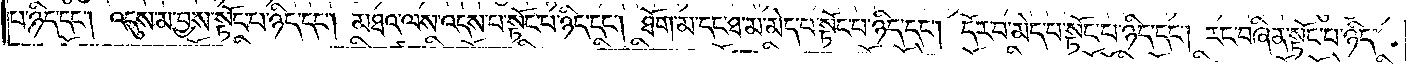པ་ཉིད་དང༌། འདུས་མ་བྱས་སྟོང་པ་ཉིད་དང༌། མཐའ་ལས་འདས་པ་སྟོང་པ་ཉིད་དང༌། ཐོག་མ་དང་ཐ་མ་མེད་པ་སྟོང་པ་ཉིད་དང༌། དོར་བ་མེད་པ་སྟོང་པ་ཉིད་དང༌། རང་བཞིན་སྟོང་པ་ཉིད་
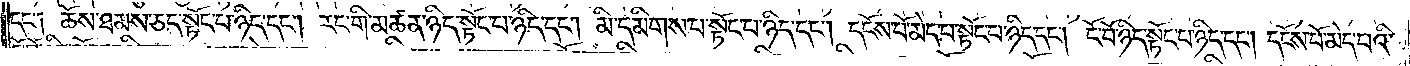དང༌༑ ཆོས་ཐམས་ཅད་སྟོང་པ་ཉིད་དང༌། རང་གི་མཚན་ཉིད་སྟོང་པ་ཉིད་དང༌། མི་དམིགས་པ་སྟོང་པ་ཉིད་དང༌། དངོས་པོ་མེད་པ་སྟོང་པ་ཉིད་དང༌། ངོ་བོ་ཉིད་སྟོང་པ་ཉིད་དང༌། དངོས་པོ་མེད་པའི་
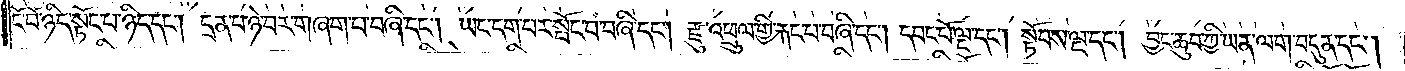ངོ་བོ་ཉིད་སྟོང་པ་ཉིད་དང༌། དྲན་པ་ཉེ་བར་གཞག་པ་བཞི་དང༌། ཡང་དག་པར་སྤོང་བ་བཞི་དང༌། རྫུ་འཕྲུལ་གྱི་རྐང་པ་བཞི་དང༌། དབང་པོ་ལྔ་དང༌། སྟོབས་ལྔ་དང༌། བྱང་ཆུབ་ཀྱི་ཡན་ལག་བདུན་དང༌།
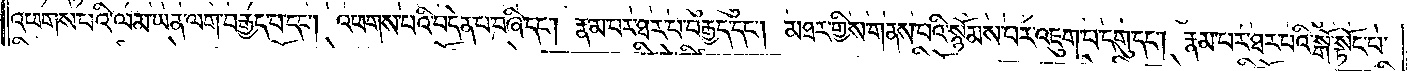འཕགས་པའི་ལམ་ཡན་ལག་བརྒྱད་པ་དང༌། འཕགས་པའི་བདེན་པ་བཞི་དང༌། རྣམ་པར་ཐར་པ་བརྒྱད་དང༌། མཐར་གྱིས་གནས་པའི་སྙོམས་པར་འཇུག་པ་དགུ་དང༌། རྣམ་པར་ཐར་པའི་སྒོ་སྟོང་པ་
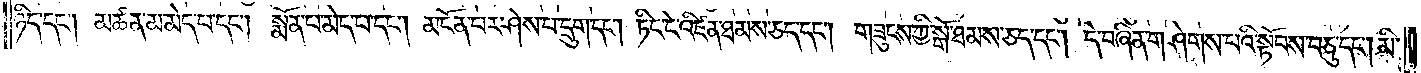ཉིད་དང༌། མཚན་མ་མེད་པ་དང༌། སྨོན་པ་མེད་པ་དང༌། མངོན་པར་ཤེས་པ་དྲུག་དང༌། ཏིང་ངེ་འཛིན་ཐམས་ཅད་དང༌། གཟུངས་ཀྱི་སྒོ་ཐམས་ཅད་དང༌། དེ་བཞིན་གཤེགས་པའི་སྟོབས་བཅུ་དང༌། མི་
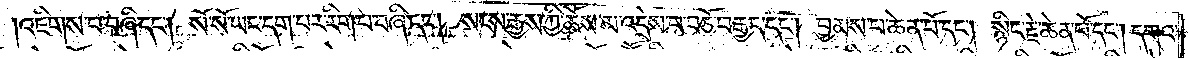འཇིགས་པ་བཞི་དང༌། སོ་སོ་ཡང་དག་པར་རིག་པ་བཞི་དང༌། སངས་རྒྱས་ཀྱི་ཆོས་མ་འདྲེས་པ་བཅོ་བརྒྱད་དང༌། བྱམས་པ་ཆེན་པོ་དང༌། སྙིང་རྗེ་ཆེན་པོ་དང༌། དགའ་
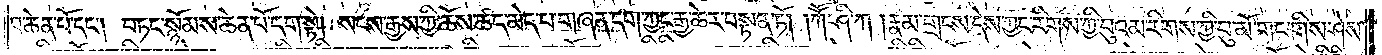བ་ཆེན་པོ་དང༌། བཏང་སྙོམས་ཆེན་པོ་དག་སྟེ། སངས་རྒྱས་ཀྱི་ཆོས་ཚད་མེད་པ་གཞན་དག་ཀྱང་རྒྱ་ཆེར་བསྟན་ཏོ། །ཀཽ་ཤི་ཀ །རྣམ་གྲངས་དེས་ཀྱང་རིགས་ཀྱི་བུའམ་རིགས་ཀྱི་བུ་མོ་གང་གིས་ཤེས་
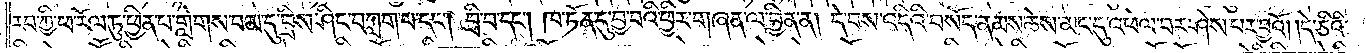རབ་ཀྱི་ཕ་རོལ་ཏུ་ཕྱིན་པ་གླེགས་བམ་དུ་བྲིས་ཤིང་བཀླག་པ་དང༌། བྲི་བ་དང༌། ཁ་ཏོན་དུ་བྱ་བའི་ཕྱིར་གཞན་ལ་བྱིན་ན། དེ་བས་འདིའི་བསོད་ནམས་ཆེས་མང་དུ་འཕེལ་བར་ཤེས་པར་བྱའོ། །དེ་ཅིའི་
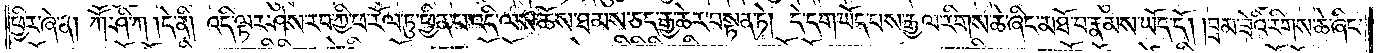ཕྱིར་ཞེ་ན། ཀཽ་ཤི་ཀ །དེ་ནི། འདི་ལྟར་ཤེས་རབ་ཀྱི་ཕ་རོལ་ཏུ་ཕྱིན་པ་འདི་ལས་ཆོས་ཐམས་ཅད་རྒྱ་ཆེར་བསྟན་ཏེ། དེ་དག་ཡོད་པས་རྒྱལ་རིགས་ཆེ་ཞིང་མཐོ་བ་རྣམས་ཡོད་དོ། །བྲམ་ཟེའི་རིགས་ཆེ་ཞིང་
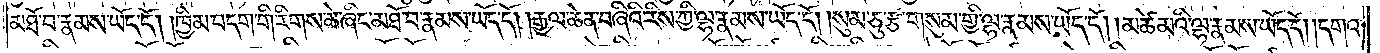མཐོ་བ་རྣམས་ཡོད་དོ། །ཁྱིམ་བདག་གི་རིགས་ཆེ་ཞིང་མཐོ་བ་རྣམས་ཡོད་དོ། །རྒྱལ་ཆེན་བཞིའི་རིས་ཀྱི་ལྷ་རྣམས་ཡོད་དོ། །སུམ་ཅུ་རྩ་གསུམ་གྱི་ལྷ་རྣམས་ཡོད་དོ། །མཚེ་མའི་ལྷ་རྣམས་ཡོད་དོ། །དགའ་
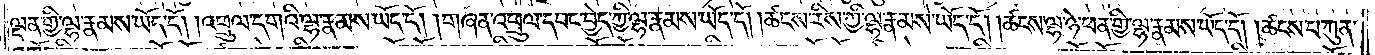ལྡན་གྱི་ལྷ་རྣམས་ཡོད་དོ། །འཕྲུལ་དགའི་ལྷ་རྣམས་ཡོད་དོ། །གཞན་འཕྲུལ་དབང་བྱེད་ཀྱི་ལྷ་རྣམས་ཡོད་དོ། །ཚངས་རིས་ཀྱི་ལྷ་རྣམས་ཡོད་དོ། །ཚངས་ལྷ་ཉེ་ཕན་གྱི་ལྷ་རྣམས་ཡོད་དོ། །ཚངས་པ་ཀུན་
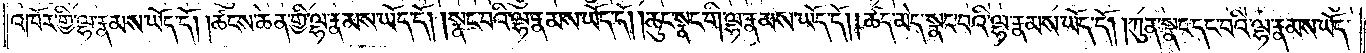འཁོར་གྱི་ལྷ་རྣམས་ཡོད་དོ། །ཚངས་ཆེན་གྱི་ལྷ་རྣམས་ཡོད་དོ། །སྣང་བའི་ལྷ་རྣམས་ཡོད་དོ། །ཆུང་སྣང་གི་ལྷ་རྣམས་ཡོད་དོ། །ཚད་མེད་སྣང་བའི་ལྷ་རྣམས་ཡོད་དོ། །ཀུན་སྣང་དང་བའི་ལྷ་རྣམས་ཡོད་
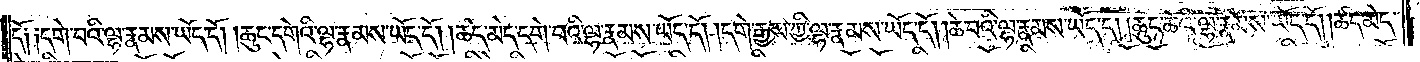དོ༑ ༑དགེ་བའི་ལྷ་རྣམས་ཡོད་དོ། །ཆུང་དགེའི་ལྷ་རྣམས་ཡོད་དོ། །ཚད་མེད་དགེ་བའི་ལྷ་རྣམས་ཡོད་དོ། །དགེ་རྒྱས་ཀྱི་ལྷ་རྣམས་ཡོད་དོ། །ཆེ་བའི་ལྷ་རྣམས་ཡོད་དོ། །ཆུང་ཆེའི་ལྷ་རྣམས་ཡོད་དོ། །ཚད་མེད་
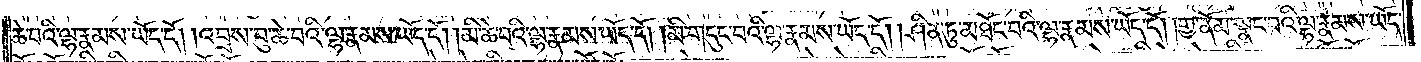ཆེ་བའི་ལྷ་རྣམས་ཡོད་དོ། །འབྲས་བུ་ཆེ་བའི་ལྷ་རྣམས་ཡོད་དོ། །མི་ཆེ་བའི་ལྷ་རྣམས་ཡོད་དོ། །མི་གདུང་བའི་ལྷ་རྣམས་ཡོད་དོ། །ཤིན་ཏུ་མཐོང་བའི་ལྷ་རྣམས་ཡོད་དོ། །གྱ་ནོམ་སྣང་བའི་ལྷ་རྣམས་ཡོད་
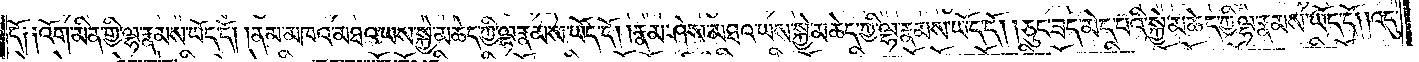དོ༑ ༑འོག་མིན་གྱི་ལྷ་རྣམས་ཡོད་དོ། །ནམ་མཁའ་མཐའ་ཡས་སྐྱེ་མཆེད་ཀྱི་ལྷ་རྣམས་ཡོད་དོ། །རྣམ་ཤེས་མཐའ་ཡས་སྐྱེ་མཆེད་ཀྱི་ལྷ་རྣམས་ཡོད་དོ། །ཅུང་ཟད་མེད་པའི་སྐྱེ་མཆེད་ཀྱི་ལྷ་རྣམས་ཡོད་དོ། །འདུ་
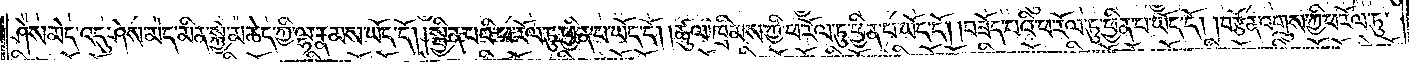ཤེས་མེད་འདུ་ཤེས་མེད་མིན་སྐྱེ་མཆེད་ཀྱི་ལྷ་རྣམས་ཡོད་དོ། །སྦྱིན་པའི་ཕ་རོལ་ཏུ་ཕྱིན་པ་ཡོད་དོ། །ཚུལ་ཁྲིམས་ཀྱི་ཕ་རོལ་ཏུ་ཕྱིན་པ་ཡོད་དོ། །བཟོད་པའི་ཕ་རོལ་ཏུ་ཕྱིན་པ་ཡོད་དོ། །བརྩོན་འགྲུས་ཀྱི་ཕ་རོལ་ཏུ་
